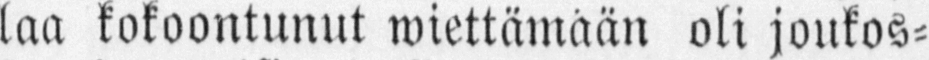laa kokoontunut wiettämään oli joukos-
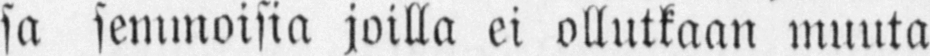sa semmoisia joilla ei ollutkaan muuta
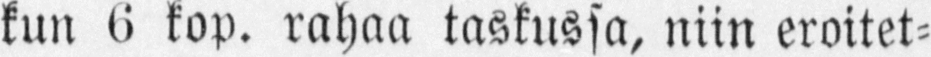kun 6 kop. rahaa taskussa, niin eroitet-
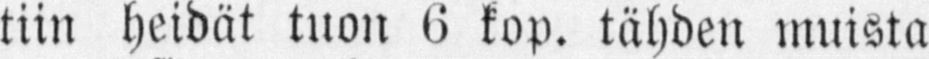tiin heidät tuon 6 kop. tähden muista
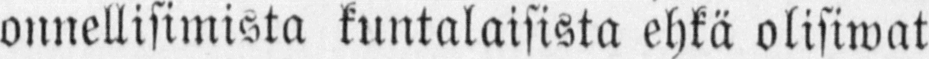onnellisimista kuntalaisista ehkä olisiwat
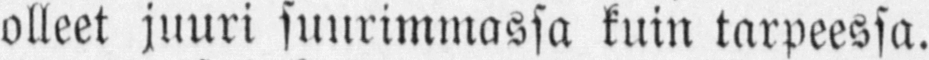olleet juuri suurimmassa kuin tarpeessa.
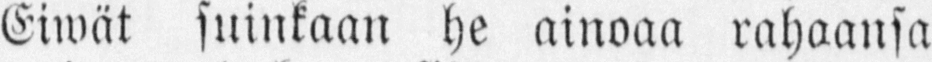Eiwät suinkaan he ainoaa rahaansa
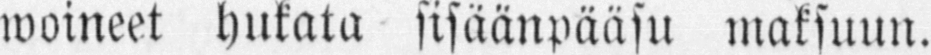woineet hukata sisäänpääsu maksuun.
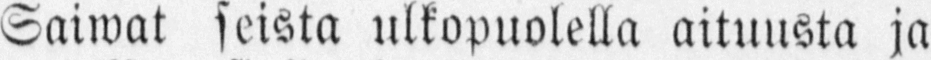Saiwat seista ulkopuolella aituusta ja
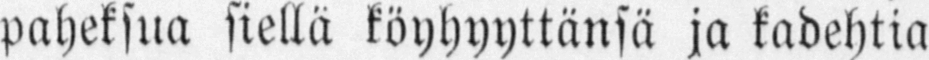paheksua siellä köyhyyttänsä ja kadehtia
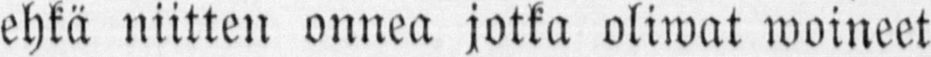ehkä niitten onnea jotka oliwat woineet
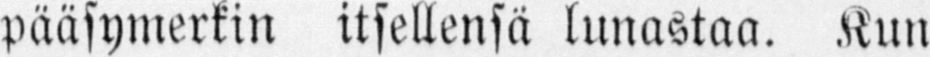pääsymerkin itsellensä lunastaa. Kuu
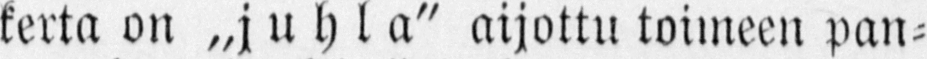kerta on „juhla" aijottu toimeen pan-
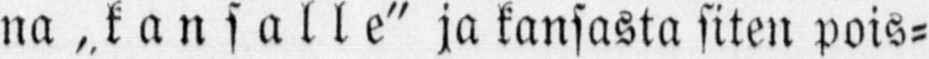na „kansalle" ja kansasta siten pois-
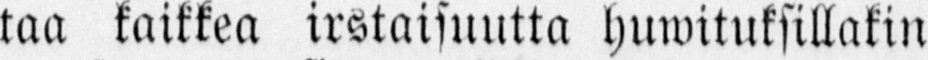taa kaikkea irstaisuutta huwituksillakin
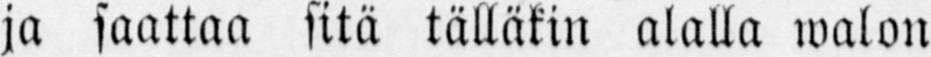ja saattaa sitä tälläkin alalla walon
